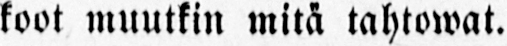koot muutkin mitä tahtoivat.
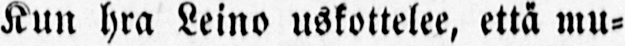Kun hra Leino uskottelee, että mu-
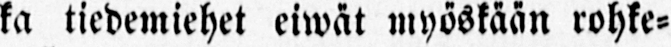ka tiedemiehet eiwät myöskään rohke-
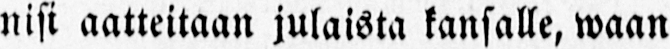nisi aatteitaan julaista kansalle, waan
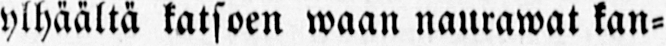ylhäältä katsoen waan naurawat kan-
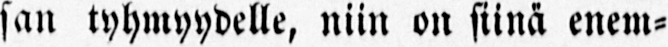san tyhmyydelle, niin on siinä enem-
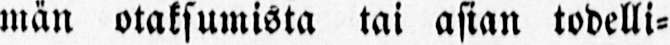män otaksumista tai asian todelli-
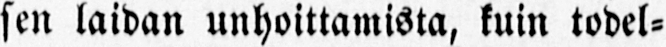sen laidan unhoittamista, kuin todel-
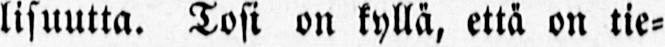lisuutta. Tosi on kyllä, että on tie-
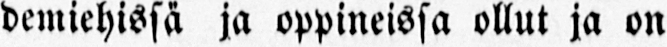demiehissä ja oppineissa ollut ja on
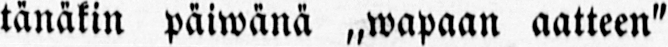tänäkin päiwänä „wapaan aatteen"
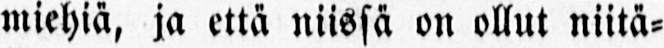miehiä, ja että niissä on ollut niitä-
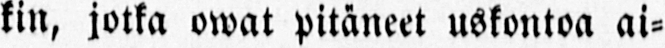kin, jotka oivat pitäneet uskontoa ai-
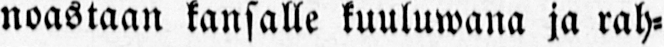noastaan kansalle kuuluwana ja rah-
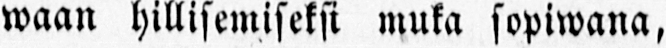waan hilltsemiseksi muka sopiwana,
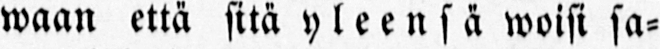waan että sitä yleensä woisi sa-
